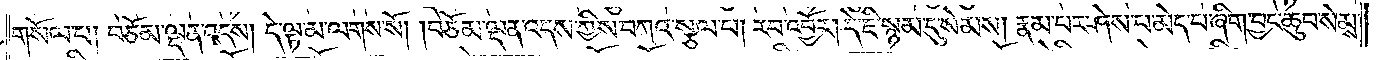གསོལ་པ། བཅོམ་ལྡན་འདས། དེ་ལྟ་མ་ལགས་སོ། །བཅོམ་ལྡན་འདས་ཀྱིས་བཀའ་སྩལ་པ། རབ་འབྱོར། དེ་ཇི་སྙམ་དུ་སེམས། རྣམ་པར་ཤེས་པ་མེད་པ་ཞིག་བྱང་ཆུབ་སེམས་
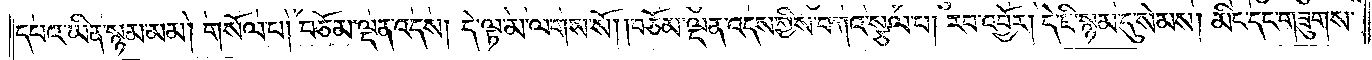དཔའ་ཡིན་སྙམ་མམ། གསོལ་པ། བཅོམ་ལྡན་འདས། དེ་ལྟ་མ་ལགས་སོ། །བཅོམ་ལྡན་འདས་ཀྱིས་བཀའ་སྩལ་པ། རབ་འབྱོར། དེ་ཇི་སྙམ་དུ་སེམས། མིང་དང་གཟུགས་
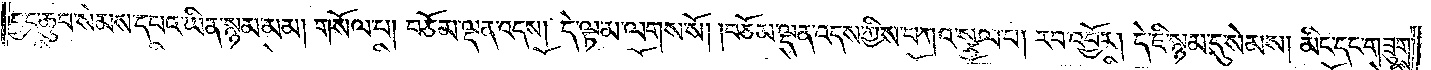བྱང་ཆུབ་སེམས་དཔའ་ཡིན་སྙམ་མམ། གསོལ་པ། བཅོམ་ལྡན་འདས། དེ་ལྟ་མ་ལགས་སོ། །བཅོམ་ལྡན་འདས་ཀྱིས་བཀའ་སྩལ་པ། རབ་འབྱོར། དེ་ཇི་སྙམ་དུ་སེམས། མིང་དང་གཟུགས་
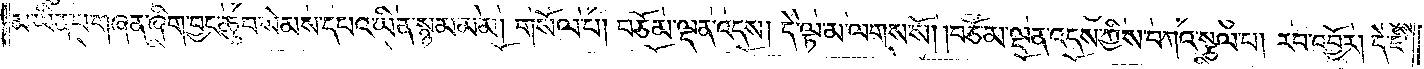མ་ཡིན་པ་གཞན་ཞིག་བྱང་ཆུབ་སེམས་དཔའ་ཡིན་སྙམ་མམ། གསོལ་པ། བཅོམ་ལྡན་འདས། དེ་ལྟ་མ་ལགས་སོ། །བཅོམ་ལྡན་འདས་ཀྱིས་བཀའ་སྩལ་པ། རབ་འབྱོར། དེ་ཇི་
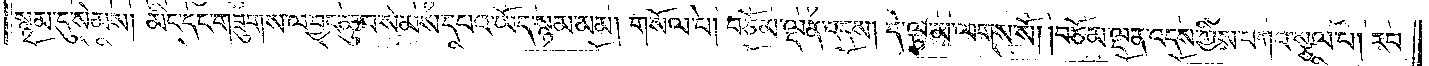སྙམ་དུ་སེམས། མིང་དང་གཟུགས་ལ་བྱང་ཆུབ་སེམས་དཔའ་ཡོད་སྙམ་མམ། གསོལ་པ། བཅོམ་ལྡན་འདས། དེ་ལྟ་མ་ལགས་སོ། །བཅོམ་ལྡན་འདས་ཀྱིས་བཀའ་སྩལ་པ། རབ་
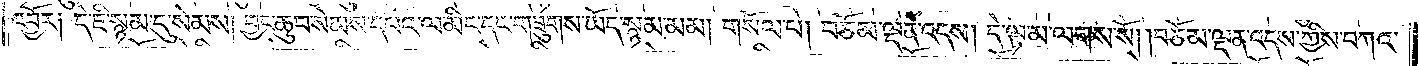འབྱོར༑ དེ་ཇི་སྙམ་དུ་སེམས། བྱང་ཆུབ་སེམས་དཔའ་ལ་མིང་དང་གཟུགས་ཡོད་སྙམ་མམ། གསོལ་པ། བཅོམ་ལྡན་འདས། དེ་ལྟ་མ་ལགས་སོ། །བཅོམ་ལྡན་འདས་ཀྱིས་བཀའ་
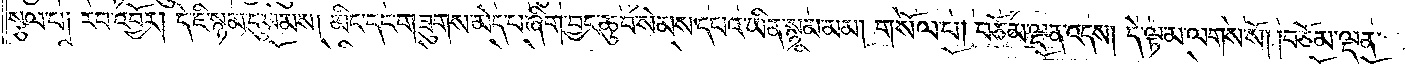སྩལ་པ༑ རབ་འབྱོར། དེ་ཇི་སྙམ་དུ་སེམས། མིང་དང་གཟུགས་མེད་པ་ཞིག་བྱང་ཆུབ་སེམས་དཔའ་ཡིན་སྙམ་མམ། གསོལ་པ། བཅོམ་ལྡན་འདས། དེ་ལྟ་མ་ལགས་སོ། །བཅོམ་ལྡན་
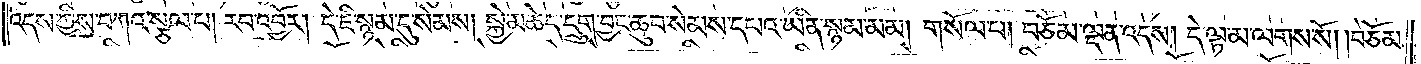འདས་ཀྱིས་བཀའ་སྩལ་པ། རབ་འབྱོར། དེ་ཇི་སྙམ་དུ་སེམས། སྐྱེ་མཆེད་དྲུག་བྱང་ཆུབ་སེམས་དཔའ་ཡིན་སྙམ་མམ། གསོལ་པ། བཅོམ་ལྡན་འདས། དེ་ལྟ་མ་ལགས་སོ། །བཅོམ་
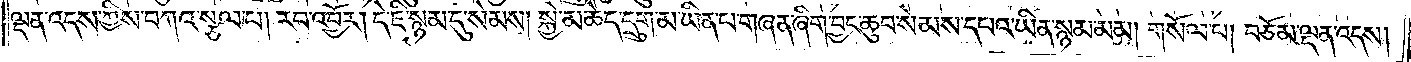ལྡན་འདས་ཀྱིས་བཀའ་སྩལ་པ། རབ་འབྱོར། དེ་ཇི་སྙམ་དུ་སེམས། སྐྱེ་མཆེད་དྲུག་མ་ཡིན་པ་གཞན་ཞིག་བྱང་ཆུབ་སེམས་དཔའ་ཡིན་སྙམ་མམ། གསོལ་པ། བཅོམ་ལྡན་འདས།
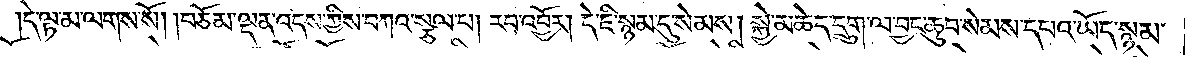དེ་ལྟ་མ་ལགས་སོ། །བཅོམ་ལྡན་འདས་ཀྱིས་བཀའ་སྩལ་པ། རབ་འབྱོར། དེ་ཇི་སྙམ་དུ་སེམས། སྐྱེ་མཆེད་དྲུག་ལ་བྱང་ཆུབ་སེམས་དཔའ་ཡོད་སྙམ་
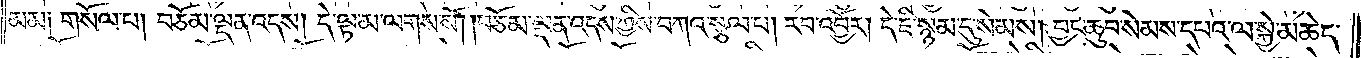མམ༑ གསོལ་པ། བཅོམ་ལྡན་འདས། དེ་ལྟ་མ་ལགས་སོ། །བཅོམ་ལྡན་འདས་ཀྱིས་བཀའ་སྩལ་པ། རབ་འབྱོར། དེ་ཇི་སྙམ་དུ་སེམས། བྱང་ཆུབ་སེམས་དཔའ་ལ་སྐྱེ་མཆེད་
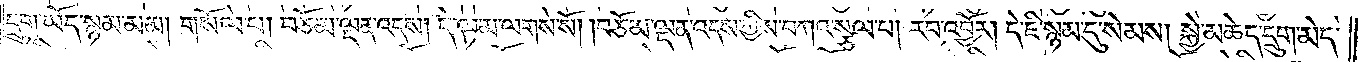དྲུག་ཡོད་སྙམ་མམ། གསོལ་པ། བཅོམ་ལྡན་འདས། དེ་ལྟ་མ་ལགས་སོ། །བཅོམ་ལྡན་འདས་ཀྱིས་བཀའ་སྩལ་པ། རབ་འབྱོར། དེ་ཇི་སྙམ་དུ་སེམས། སྐྱེ་མཆེད་དྲུག་མེད་
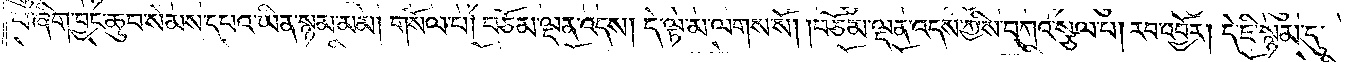པ་ཞིག་བྱང་ཆུབ་སེམས་དཔའ་ཡིན་སྙམ་མམ། གསོལ་པ། བཅོམ་ལྡན་འདས། དེ་ལྟ་མ་ལགས་སོ། །བཅོམ་ལྡན་འདས་ཀྱིས་བཀའ་སྩལ་པ། རབ་འབྱོར། དེ་ཇི་སྙམ་དུ་
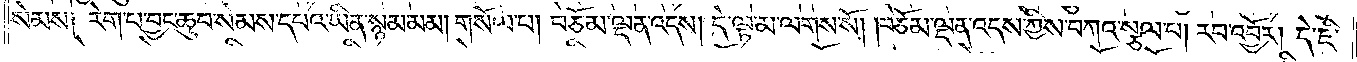སེམས༑ རེག་པ་བྱང་ཆུབ་སེམས་དཔའ་ཡིན་སྙམ་མམ། གསོལ་པ། བཅོམ་ལྡན་འདས། དེ་ལྟ་མ་ལགས་སོ། །བཅོམ་ལྡན་འདས་ཀྱིས་བཀའ་སྩལ་པ། རབ་འབྱོར། དེ་ཇི་
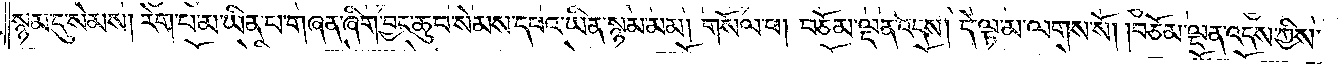སྙམ་དུ་སེམས། རེག་པ་མ་ཡིན་པ་གཞན་ཞིག་བྱང་ཆུབ་སེམས་དཔའ་ཡིན་སྙམ་མམ། གསོལ་པ། བཅོམ་ལྡན་འདས། དེ་ལྟ་མ་ལགས་སོ། །བཅོམ་ལྡན་འདས་ཀྱིས་
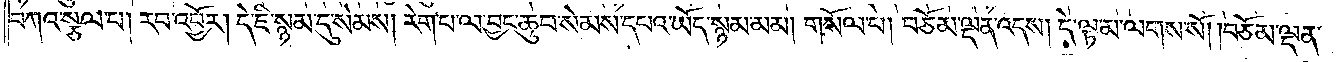བཀའ་སྩལ་པ། རབ་འབྱོར། དེ་ཇི་སྙམ་དུ་སེམས། རེག་པ་ལ་བྱང་ཆུབ་སེམས་དཔའ་ཡོད་སྙམ་མམ། གསོལ་པ། བཅོམ་ལྡན་འདས། དེ་ལྟ་མ་ལགས་སོ། །བཅོམ་ལྡན་
